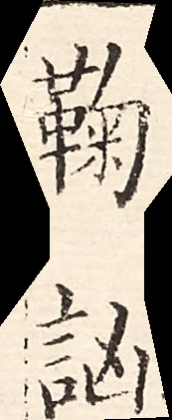鞠訩
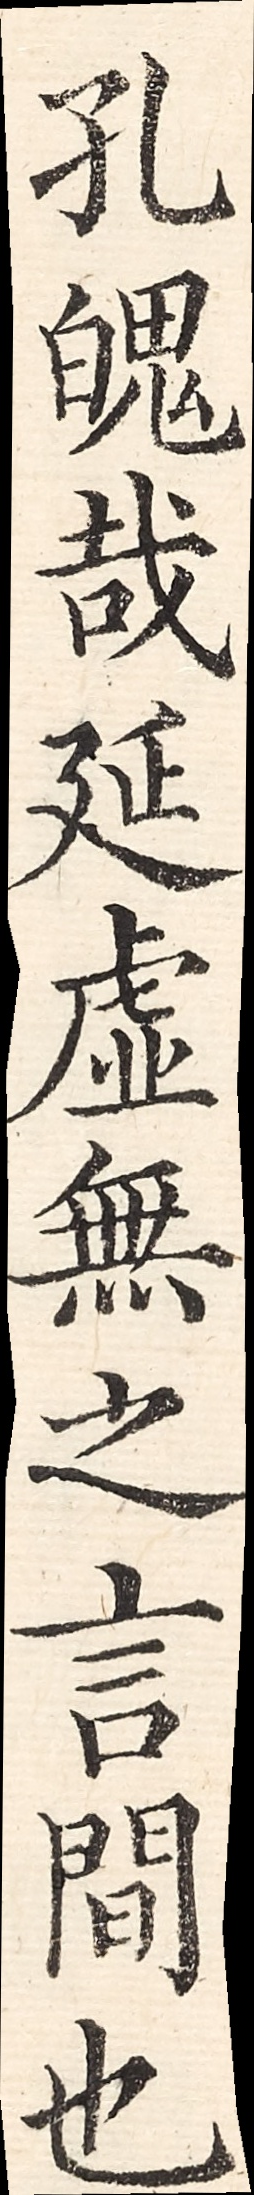孔魄哉延虛無之言間也
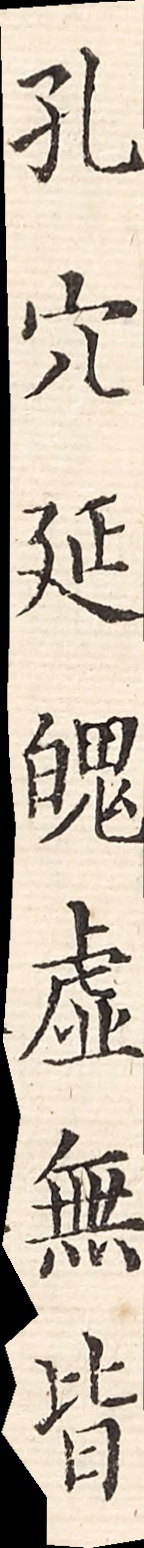孔穴延魄虛無皆
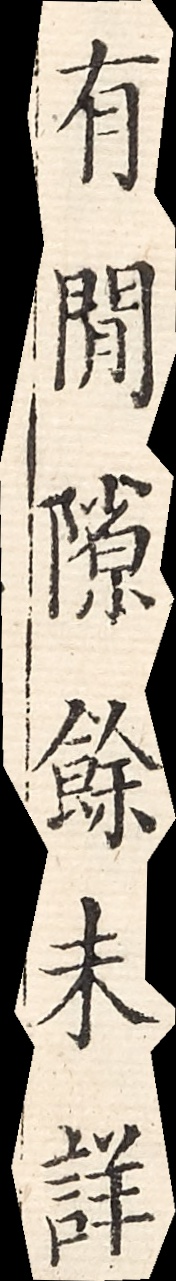有閒隙餘未詳
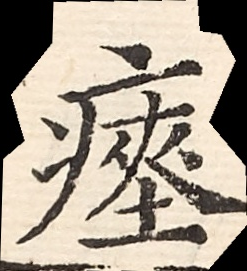瘞
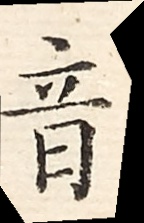音
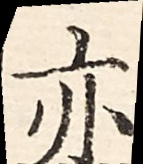亦
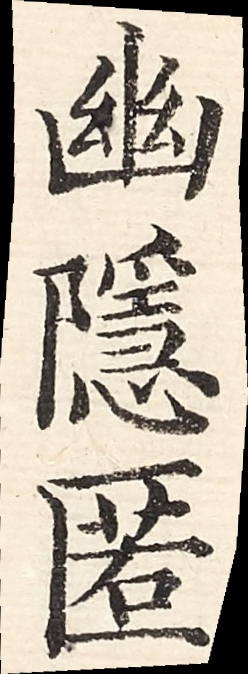幽隱匿
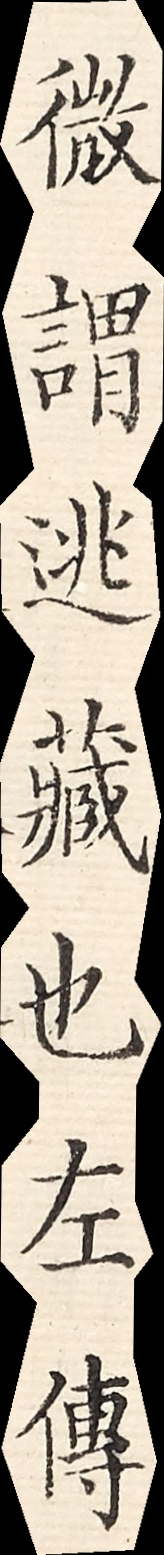微謂逃藏也左傳
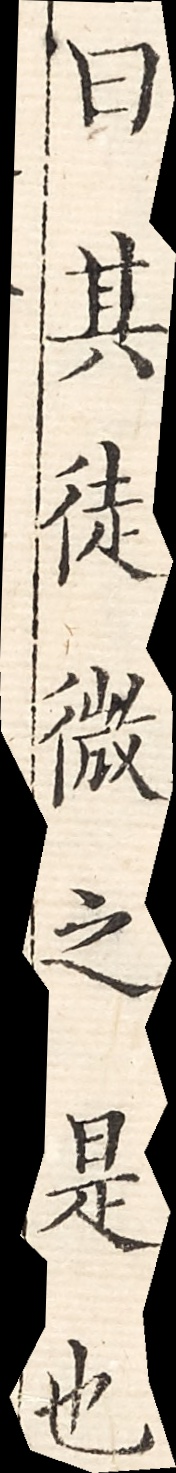曰其徒微之是也
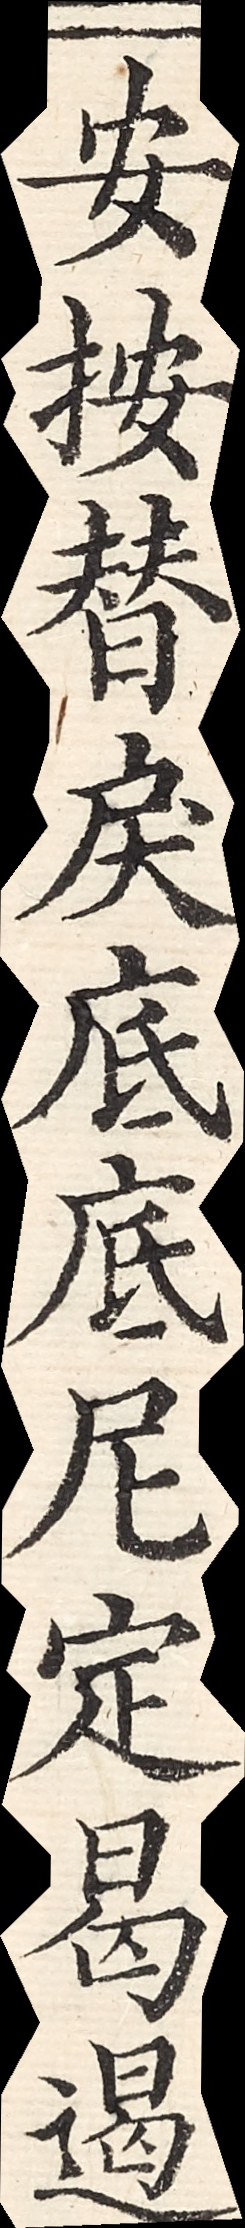安按替戾底底尼定曷遏
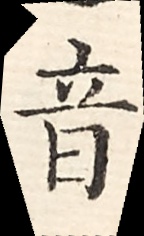音
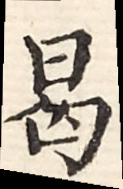曷
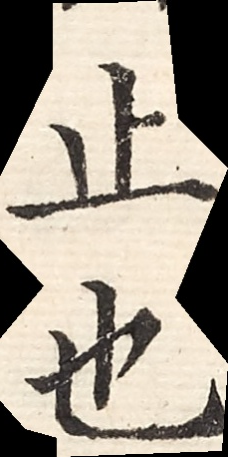止也
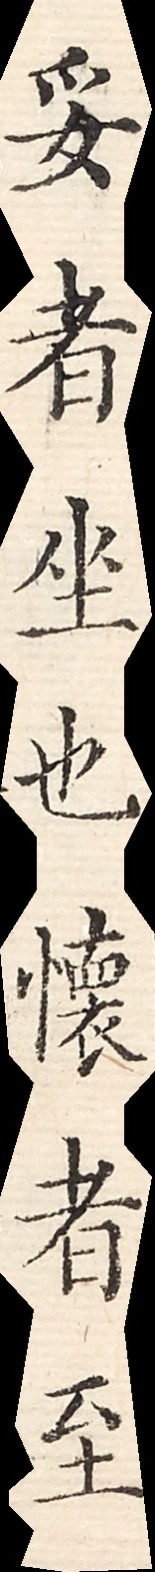妥者坐也懷者至
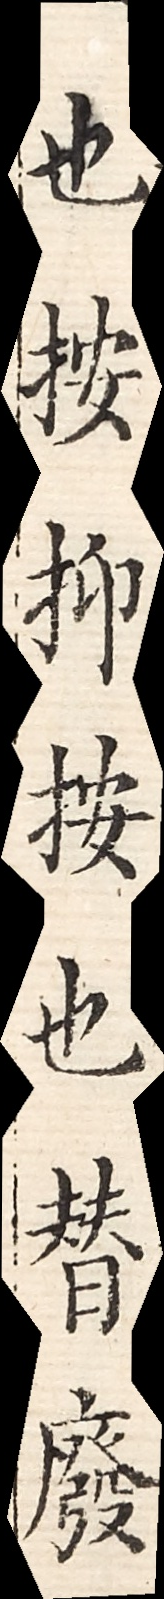也按抑按也替廢
